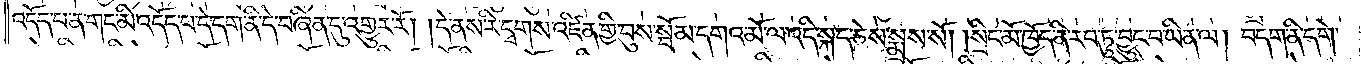འདོད་པ་ན་གང་མི་འདོད་པ་དེ་དག་ནི་དེ་བཞིན་དུ་འགྱུར་རོ། །དེ་ནས་རི་དྭགས་འཛིན་གྱི་བུས་སྦོམ་དགའ་མོ་ལ་འདི་སྐད་ཅེས་སྨྲས་སོ། །སྲིང་མོ་ཁྱོད་ནི་རབ་ཏུ་བྱུང་བ་ཡིན་ལ། བདག་ནི་དགེ་
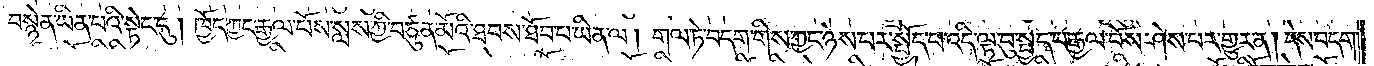བསྙེན་ཡིན་པའི་སྟེང་དུ། ཁྱོད་ཀྱང་རྒྱལ་པོས་སླས་ཀྱི་བཙུན་མོའི་ཐབས་ཐོབ་པ་ཡིན་ལ། གལ་ཏེ་བདག་གིས་ཀྱང་ཉེས་པར་སྤྱོད་པ་འདི་ལྟ་བུ་སྤྱད་པ་རྒྱལ་པོས་ཤེས་པར་གྱུར་ན། དེས་བདག་
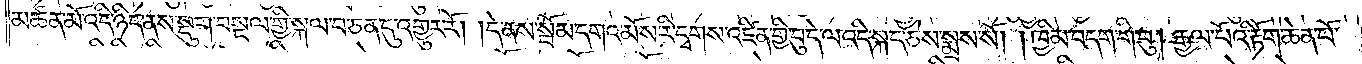མཚན་མོ་འདི་ཉིད་ནས་སྡུག་བསྔལ་གྱི་སྐལ་བ་ཅན་དུ་འགྱུར་རོ། །དེ་ནས་སྦོམ་དགའ་མོས་རི་དྭགས་འཛིན་གྱི་བུ་དེ་ལ་འདི་སྐད་ཅེས་སྨྲས་སོ། །ཁྱིམ་བདག་གི་བུ། རྒྱལ་པོའི་རྟོག་ཆེན་པོ་
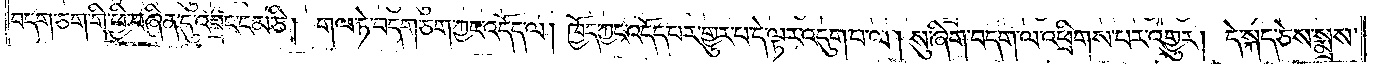བདག་ཅག་གི་ཕྱི་བཞིན་དུ་འབྲང་ངམ་ཅི། གལ་ཏེ་བདག་ཅག་ཀྱང་འདོད་ལ། ཁྱོད་ཀྱང་འདོད་པར་གྱུར་པ་དེ་ལྟར་འདུག་པ་ལ། སུ་ཞིག་བདག་ལ་འཕྲིགས་པར་འགྱུར། དེ་སྐད་ཅེས་སྨྲས་
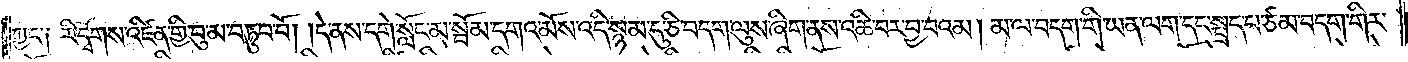ཀྱང་༑ རི་དྭགས་འཛིན་གྱི་བུ་མ་བཏུབ་པོ། །དེ་ནས་དགེ་སློང་སྦོམ་དགའ་མོས་འདི་སྙམ་དུ་ཅི་བདག་ལུས་ཞིག་ནས་འཆི་བར་བྱ་བའམ། མ་ལ་བདག་གི་ཡན་ལག་དང་སྤྲད་པ་ཙམ་བདག་གིར་
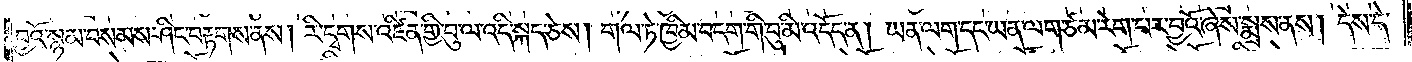བྱའོ་སྙམ་བསམས་ཤིང་བརྟགས་ནས། རི་དྭགས་འཛིན་གྱི་བུ་ལ་འདི་སྐད་ཅེས། གལ་ཏེ་ཁྱིམ་བདག་གི་བུ་མི་འདོད་ན། ཡན་ལག་དང་ཡན་ལག་ཙམ་རེག་པར་བྱའོ་ཞེས་སྨྲས་ནས། དེས་དེ་
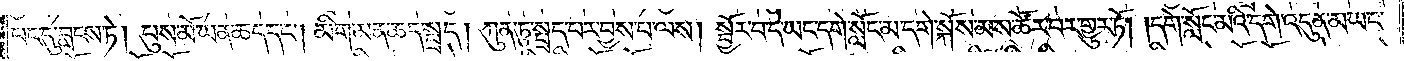པང་དུ་བླངས་ཏེ། པུས་མོ་ཡན་ཆད་དང༌། མིག་མན་ཆད་སྤྲད། ཀུན་ཏུ་སྤྲད་པར་བྱས་པ་ལས། སྦྱོར་བ་དེ་ཡང་དགེ་སློང་མ་དགེ་སྐོས་མས་ཚོར་བར་གྱུར་ཏོ། །དགེ་སློང་མའི་དགེ་འདུན་མ་ཡང་
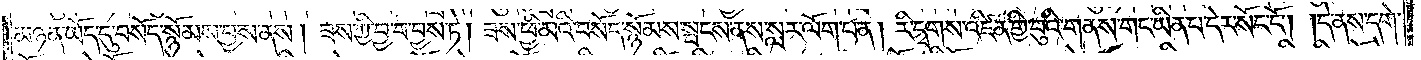མཉན་ཡོད་དུ་བསོད་སྙོམས་བྱས་ནས། ཟས་ཀྱི་བྱ་བ་བྱས་ཏེ། ཟས་ཕྱི་མའི་བསོད་སྙོམས་སྤངས་ནས་སླར་ལོག་པ་ན། རི་དྭགས་འཛིན་གྱི་བུའི་གནས་གང་ཡིན་པ་དེར་སོང་ངོ༌། །དེ་ནས་དགེ་
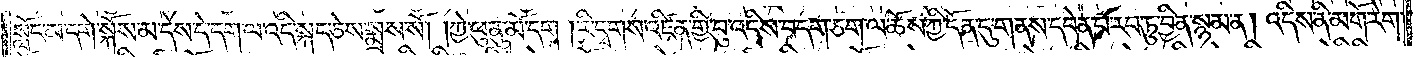སློང་མ་དགེ་སྐོས་མ་དེས་དེ་དག་ལ་འདི་སྐད་ཅེས་སྨྲས་སོ། །ཀྱེ་ཕུ་ནུ་མོ་དག །རི་དྭགས་འཛིན་གྱི་བུ་འདིས་བདག་ཅག་ལ་ཆོས་ཀྱི་དོན་དུ་གནས་དབེན་པ་རབ་ཏུ་བྱིན་སྙམ་ན། འདིས་ནི་མགོ་རེག་
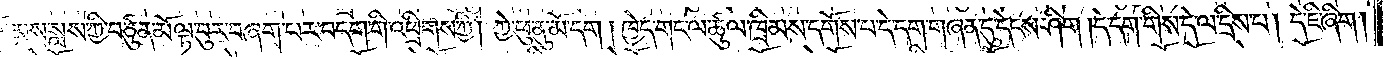རྣམས་སླས་ཀྱི་བཙུན་མོ་ལྟ་བུར་བཞག་པར་བདག་གི་འཕྲིགས་ཀྱི། ཀྱེ་ཕུ་ནུ་མོ་དག །ཁྱེད་གང་ལ་ཚུལ་ཁྲིམས་དགོས་པ་དེ་དག་གཞན་དུ་དེངས་ཤིག །དེ་དག་གིས་དེ་ལ་དྲིས་པ། དེ་ཇི་ཞིག།
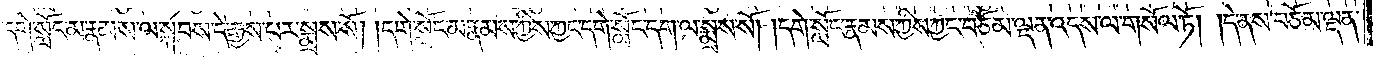དེས་དགེ་སློང་མ་རྣམས་ལ་སྐབས་དེ་རྒྱས་པར་སྨྲས་སོ། །དགེ་སློང་མ་རྣམས་ཀྱིས་ཀྱང་དགེ་སློང་དག་ལ་སྨྲས་སོ། །དགེ་སློང་རྣམས་ཀྱིས་ཀྱང་བཅོམ་ལྡན་འདས་ལ་གསོལ་ཏོ། །དེ་ནས་བཅོམ་ལྡན་
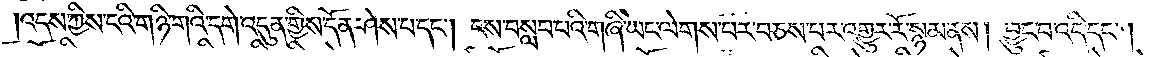འདས་ཀྱིས་ངའི་གཉི་གའི་དགེ་འདུན་གྱིས་དོན་ཤེས་པ་དང༌། ངས་བསླབ་པའི་གཞི་ཡང་ལེགས་པར་བཅས་པར་འགྱུར་རོ་སྙམ་ནས། བྱུང་བ་འདི་དང༌།
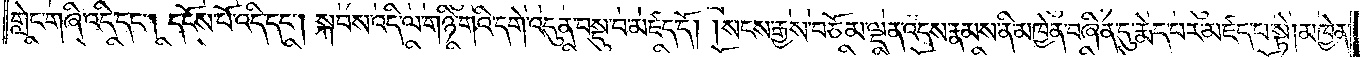གླེང་གཞི་འདི་དང༌། དངོས་པོ་འདི་དང༌། སྐབས་འདི་ལ་གཉི་གའི་དགེ་འདུན་བསྡུ་བ་མཛད་དོ། །སངས་རྒྱས་བཅོམ་ལྡན་འདས་རྣམས་ནི་མཁྱེན་བཞིན་དུ་རྨེད་པར་མཛད་པ་སྟེ། མཁྱེན་
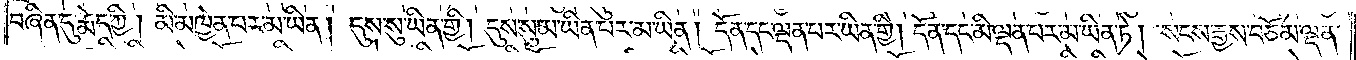བཞིན་དུ་རྨེད་ཀྱི། མི་མཁྱེན་པར་མ་ཡིན། དུས་སུ་ཡིན་གྱི། དུས་སུ་མ་ཡིན་པར་མ་ཡིན། དོན་དང་ལྡན་པར་ཡིན་གྱི། དོན་དང་མི་ལྡན་པར་མ་ཡིན་ཏེ། སངས་རྒྱས་བཅོམ་ལྡན་
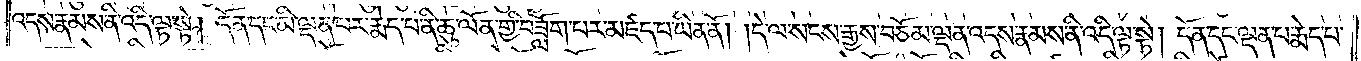འདས་རྣམས་ནི་འདི་ལྟ་སྟེ། དོན་དང་མི་ལྡན་པར་རྨེད་པ་ནི་ཆུ་ལོན་གྱི་བཟློག་པར་མཛད་པ་ཡིན་ནོ། །དེ་ལ་སངས་རྒྱས་བཅོམ་ལྡན་འདས་རྣམས་ནི་འདི་ལྟ་སྟེ། དོན་དང་ལྡན་པ་རྨེད་པ་
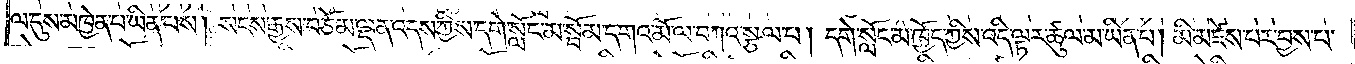ལ་དུས་མཁྱེན་པ་ཡིན་པས། སངས་རྒྱས་བཅོམ་ལྡན་འདས་ཀྱིས་དགེ་སློང་མ་སྦོམ་དགའ་མོ་ལ་བཀའ་སྩལ་པ། དགེ་སློང་མ་ཁྱོད་ཀྱིས་འདི་ལྟར་ཚུལ་མ་ཡིན་པ། མི་མཛེས་པར་བྱས་པ་
